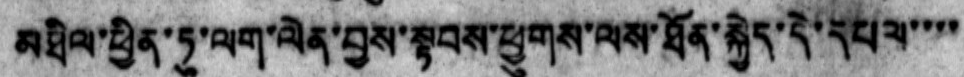མཐིལ་ཕྱིན་ཏུ་ལག་ལེན་བྱས་སྟབས་ཕྱུགས་ལས་ཐོན་སྐྱེད་དེ་དཔལ་་་་
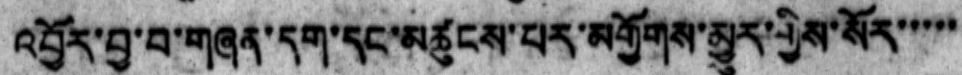འབྱོར་བྱ་བ་གཞན་དག་དང་མཚུངས་པར་མགྱོགས་མྱུར་གྱིས་སོར་་་་་
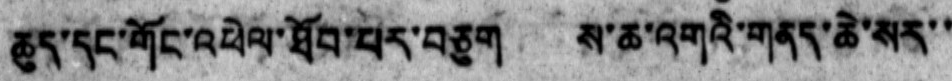ཆུད་དང་གོང་འཕེལ་ཐོབ་པར་བཅུག ས་ཆ་འགའི་གནད་ཆེ་སར་་
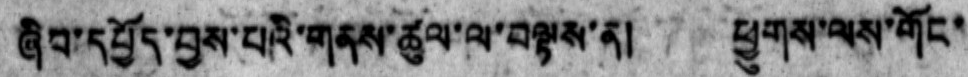ཞིབ་དཔྱོད་བྱས་པའི་གནས་ཚུལ་ལ་བལྟས་ན། ཕྱུགས་ལས་གོང་
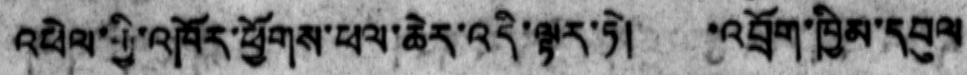འཕེལ་གྱི་འཁོར་ཕྱོགས་ཕལ་ཆེར་འདི་ལྟར་ཏེ།  འབྲོག་ཁྱིམ་དབུལ
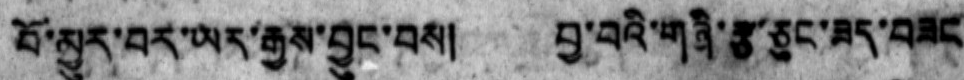བོ་མྱུར་བར་ཡར་རྒྱས་བྱུང་བས། བྱ་བའི་གཞི་རྩ་ཅུང་ཟད་བཟང
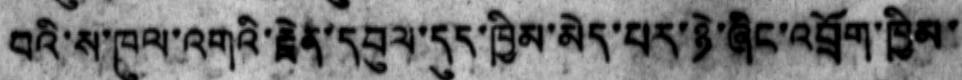བའི་ས་ཁུལ་འགའི་རྗེན་དབུལ་དུད་ཁྱིམ་མེད་པར་ཉེ་ཞིང་འབྲོག་ཁྱིམ་
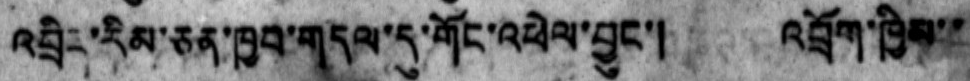འབྲིད་རིམ་ཅན་ཁྱབ་གདལ་དུ་གོང་འཕེལ་བྱུང་། འབྲོག་ཁྱིས་་
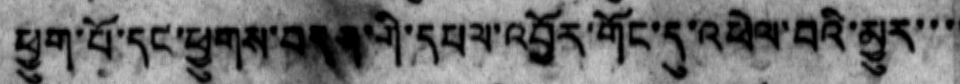ཕྱུག་པོ་དང་ཕྱུགས་བཅུན་གི་དཔལ་འབྱོར་གོང་དུ་འཕེལ་བའི་མྱུར་་་་
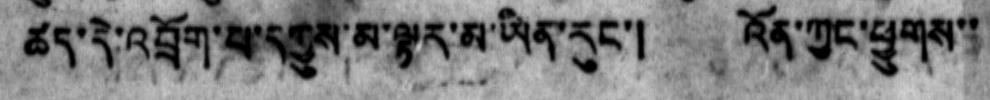ཚད་དེ་འབྲོག་པ་དགྱུས་མ་ལྟར་མ་ཡིན་རུང་། འོན་ཀྱང་ཕྱུགས་་
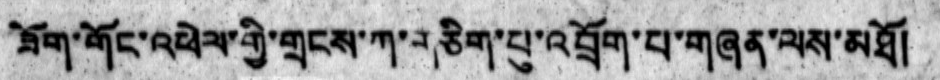ཟོག་གོང་འཕེལ་གྱི་གྲངས་ཀ་གཅིག་པུ་འབྲོག་པ་གཞན་ལས་མཐོ།
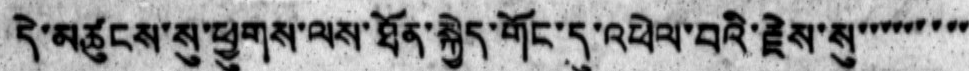དེ་མཚུངས་སུ་ཕྱུགས་ལས་ཐོན་སྐྱེད་གོང་དུ་འཕེལ་བའི་རྗེས་སུ་་་་་་་་་
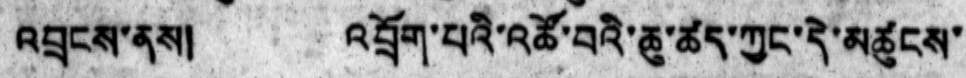འབྲངས་ནས། འབྲོག་པའི་འཚོ་བའི་ཆུ་ཚད་ཀྱང་དེ་མཚུངས་
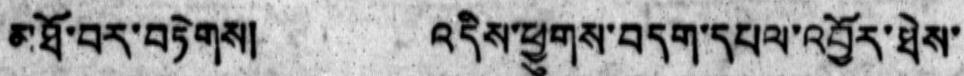མཐོ་བར་བརྟེགས། འདིས་ཕྱུགས་བདག་དཔལ་འབྱོར་ཐེས་
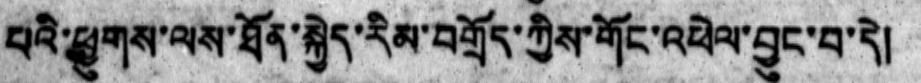པའི་ཕྱུགས་ལས་ཐོན་སྐྱེད་རིམ་བགྲོད་ཀྱིས་གོང་འཕེལ་བྱུང་བ་དེ།
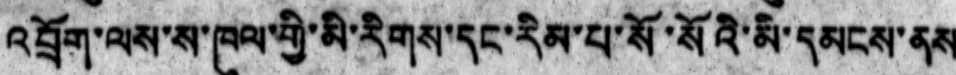འབྲོག་ལས་ས་ཁུལ་གྱི་མི་རིགས་དང་རིམ་པ་སོ་སོའི་མི་དམངས་ནས
